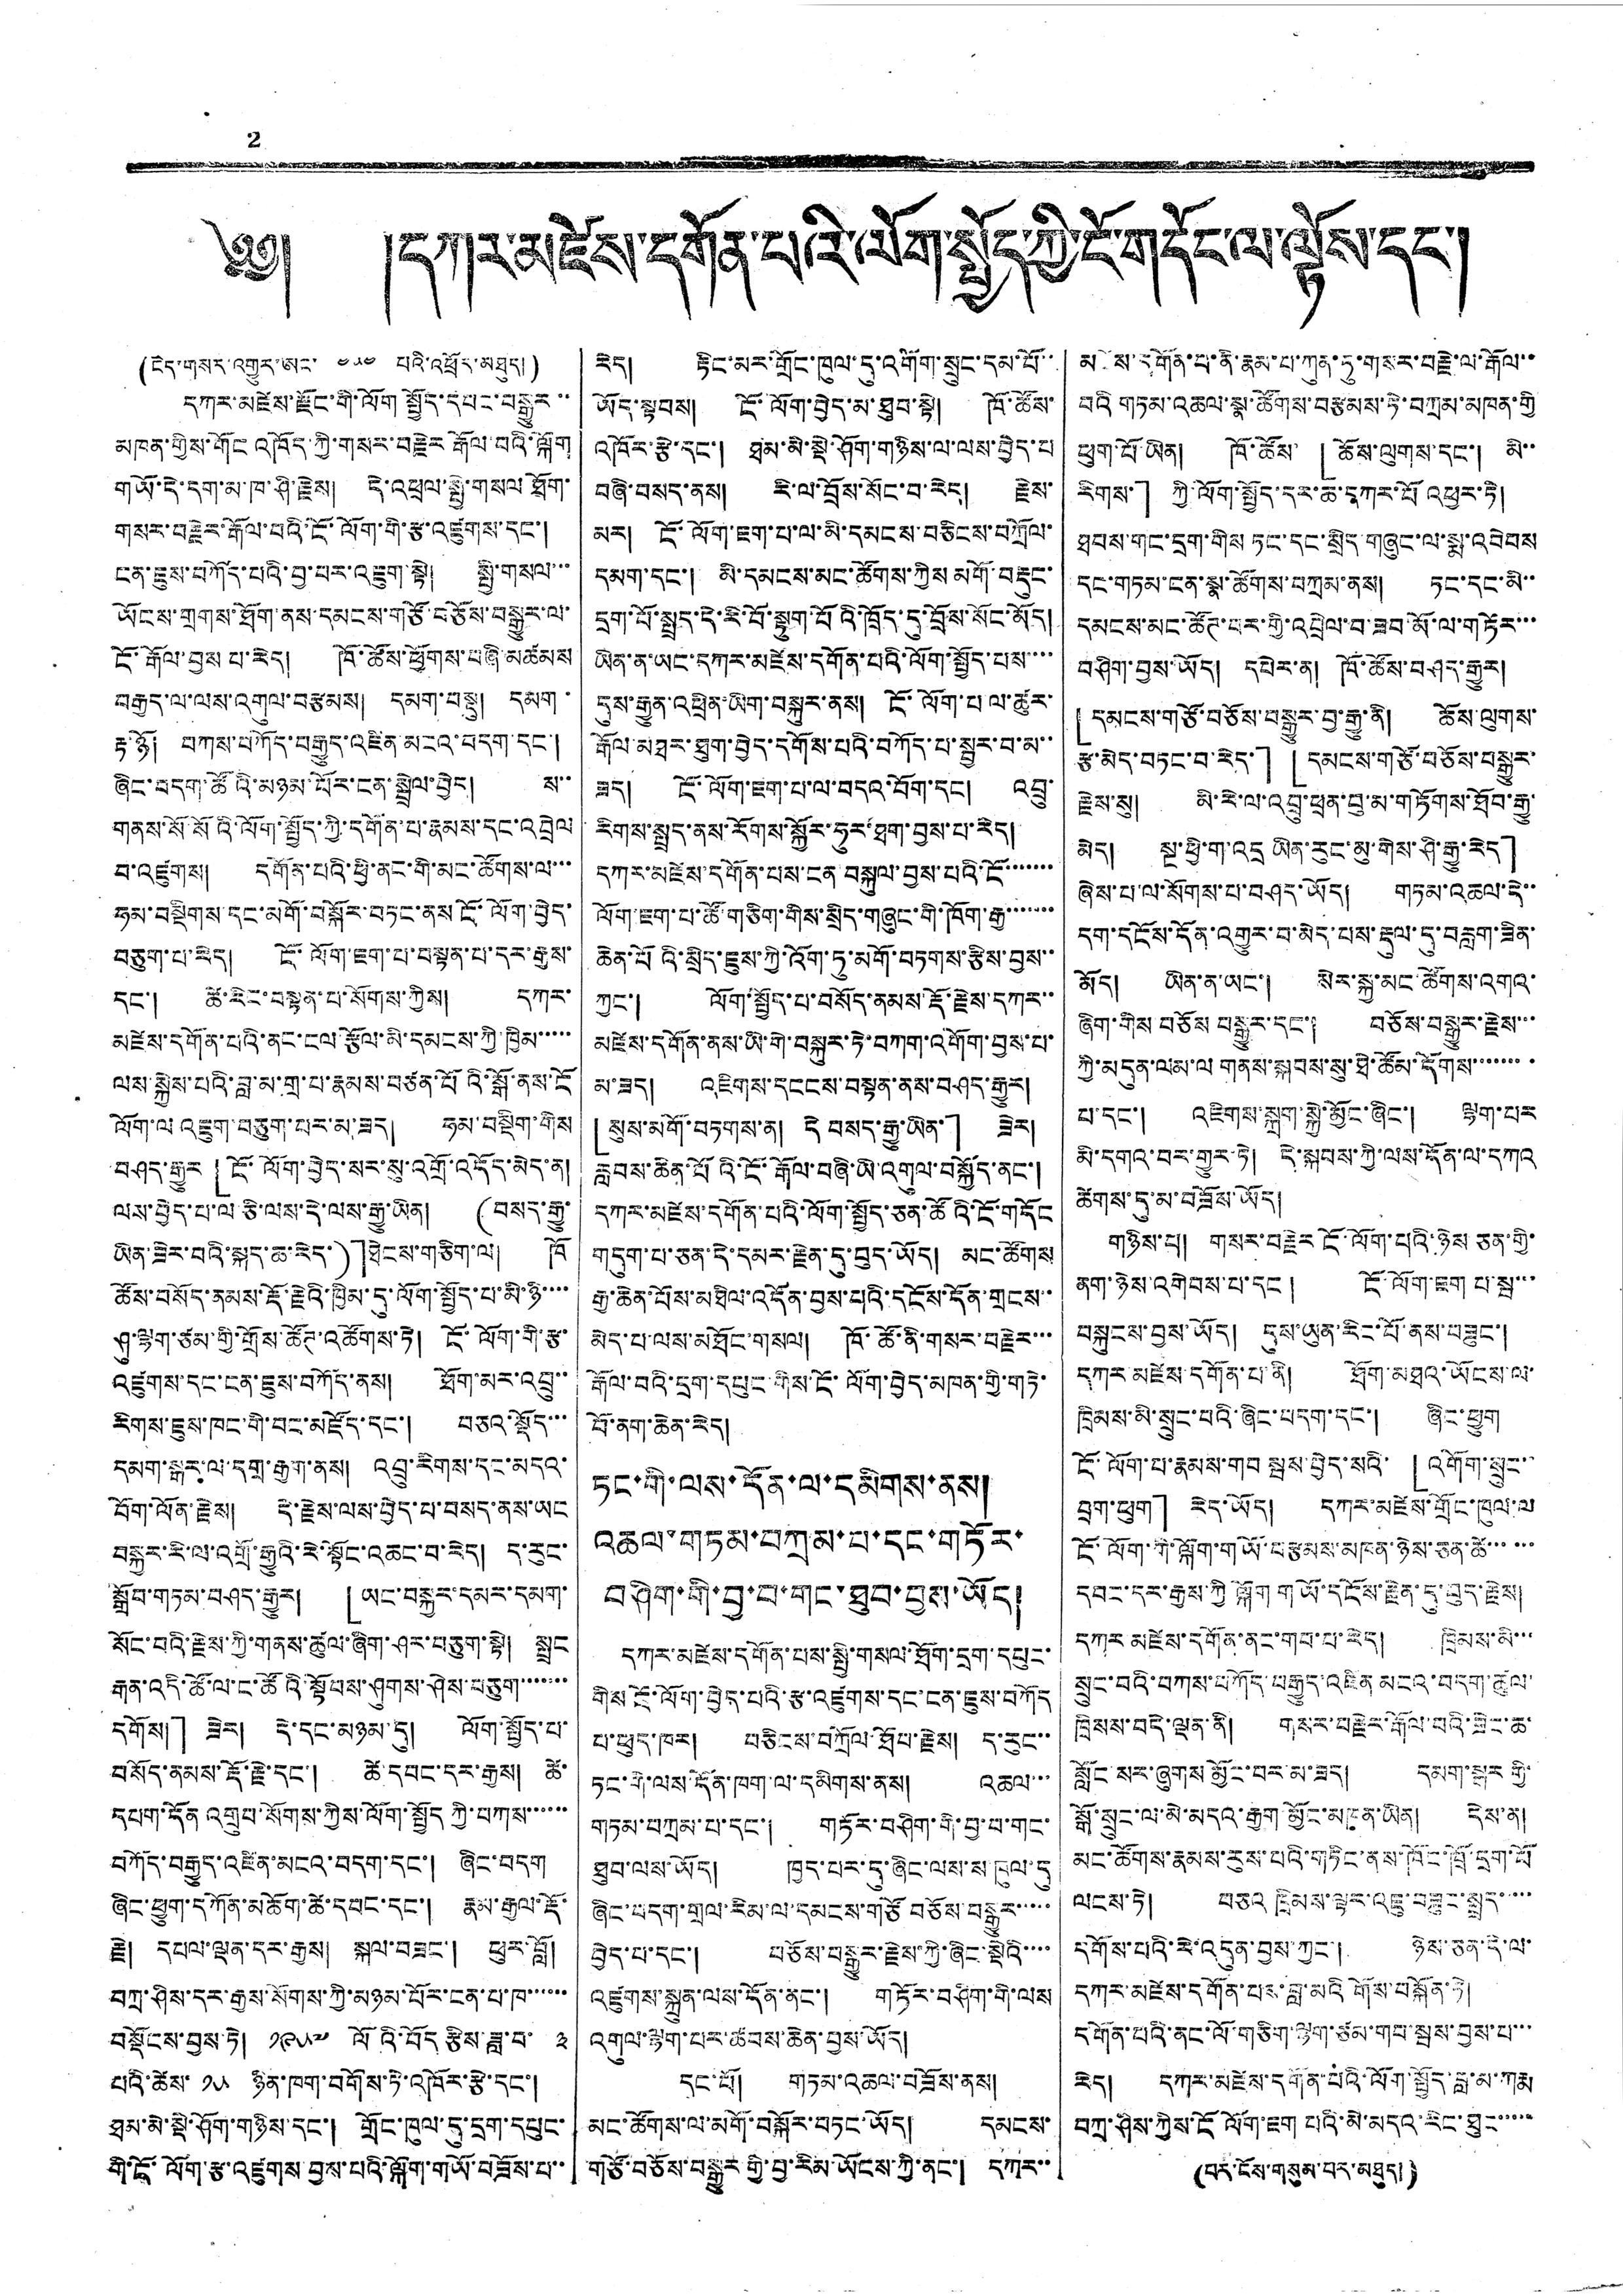2
༄༅། །དཀར་མཛེས་དགོན་པའི་ལོག་སྤྱོད་ཀྱི་ངོ་གདོང་ལ་ལྟོས་དང་།
(ངེད་གསར་འགྱུར་ཨང་ ༤༥༤ པའི་འཕྲོར་མཐུད།)
དཀར་མཛེས་རྫོང་གི་ལོག སྤྱོད་དབང་བསྒྱུར་་
མཁན་གྱིས་གོང འཁོད་ཀྱི་གསར་བརྗེར རྒོལ བའི་ལྐོག
གཡོ་དེ་དག་མ་ཁ་ཤི་རྗེས། དེ་འཕྲལ་སྤྱེ་གསལ ཐོག་
གསར་བརྗེར་རྒོལ་བའི་ངོ་ལོག་གི་རྩ་འཛུགས་དང་།
ངན་ཇུས་བཀོད་པའི་བྱ་པར་འཇུག་སྟེ། སྤྱི་གསལ་་་
ཡོངས་གྲགས་ཐོག་ནས་དམངས་གཙོ་བཅོས་བསྒྱུར་ལ་
ངོ་རྒོལ་བྱས པ་རེད། ཁོ་ཚོས་ཕྱོགས་བཞི་མཚམས
བརྒྱད་ལ་ལས་འགུལ་བརྩམས། དམག་བསྡུ། དམག་
རྟ་ཉོ། བཀས་བཀོད་བརྒྱུད་འཛིན་མངའ་བདག་དང་།
ཞིང་བདག་ཚོའི་མཉམ་པོར་ངན་སྦྲེལ་བྱེད། ས་་
གནས་སོ་སོའི་ལོག་སྤྱོད་ཀྱི་དགོན་པ་རྣམས་དང་འབྲེལ
བ་འཛུགས། དགོན་པའི་ཕྱི་ནང་གི་མང་ཚོགས་ལ་་་
ཧམ་བསྡིགས་དང་མགོ་བསྐོར་བཏང་ནས ངོ་ལོག་བྱེད་
བཅུག་པ་རེད། ངོ་ལོག་ཇག་པ་བསྟན་པ་དར་རྒྱས་
དང་། ཚེ་རིང་བསྟན་པ་སོགས་ཀྱིས། དཀར་
མཛེས་དགོན་པའི་ནང་ངལ་རྩོལ་མི་དམངས་ཀྱི་ཁྱིམ་་་་་
ལས་སྐྱེས་པའི་བླ་མ་གྲ་པ་རྣམས་བཙན་པོའི་སྒོ་ནས་ངོ
ལོག་ལ འཇུག་བཅུག་པར་མ་ཟད། ཧམ་བསྡིག་གིས
བཤད་རྒྱུར 「ངོ་ལོག་བྱེད་སར་སུ་འགྲོ་འདོད་མེད་ན།
ལས་བྱེད་པ་ལ་ཅི་ལས་དེ་ལས་རྒྱུ་ཡིན། (བསད་རྒྱུ་
ཡིན་ཟེར་བའི་སྐད་ཆ་རེད་)」ཐེངས་གཅིག་ལ། ཁོ
ཚོས་བསོད་ནམས་རྡོ་རྗེའི་ཁྱིམ་དུ་ལོག་སྤྱོད་པ་མི་ཉི་་་་
ཤུ་ལྷག་ཙམ་གྱི་གྲོས་ཚོཊ་འཚོགས་ཏེ། ངོ་ལོག་གི་རྩ་
འཛུགས་དང་ངན་ཇུས་བཀོད་ནས། ཐོག་མར་འབྲུ་་
རིགས་ཇུས་ཁང་གི་བང་མཛོད་དང་། བཅའ་སྡོད་་་
དམག་སྒར་ལ་དགྲ་རྒྱག་ནས། འབྲུ་རིགས་དང་མདའ་
བོག་ལོན་རྗེས། དེ་རྗེས་ལས་བྱེད་པ་བསད་ནས་ཡང
བསྐྱར་རི་ལ་འགྲོ་རྒྱུའི་རེ་སྟོང་འཆང་བ་རེད། ད་རུང་
སྒྲོབ་གཏམ་བཤད་རྒྱུར། 「ཡང་བསྐྱར་དམར་དམག་
སོང་བའི་རྗེས་ཀྱི་གནས་ཚུལ་ཞིག་ཤར་བཅུག་སྟེ། སྤྲང
རྒན་འདི་ཚོ་ལ་ང་ཚོའི་སྟོབས་ཤུགས་ཤེས་བཅུག་་་་་་་
དགོས།」 ཟེར། དེ་དང་མཉམ་དུ། ལོག་སྤྱོད་པ་
བསོད་ནམས་རྡོ་རྗེ་དང་། ཚེ་དབང་དར་རྒྱས། ཚེ་
དཔག་དོན འགྲུབ་སོགས་ཀྱིས་ལོག་སྤྱོད ཀྱི་བཀས་་་་་་
བཀོད་བརྒྱུད་འཛིན་མངའ་བདག་དང་། ཞིང་བདག
ཞིང་ཕྱུག་དཀོན་མཆོག་ཚེ་དབང་དང་། རྣམ་རྒྱལ་རྡོ་
རྗེ། དཔལ་ལྡན་དར་རྒྱས། སྐལ་བཟང་། ཕུར་བློ།
བཀྲ་ཤིས་དར་རྒྱས་སོགས་ཀྱི་མཉམ་པོར་ངན་པ་ཁ་་་་་་
བསྡོངས་བྱས་ཏེ། ༡༩༥༧ ལོའི་བོད རྩིས་ཟླ་བ་ ༣
པའི་ཚེས་ ༡༥ ཉིན་ཁག་བགོས་ཏེ་འཁོར་རྩེ་དང་།
ཐམ་མེ་སྡེ་ཤོག་གཉིས་དང་། གྲོང་ཁུལ་དུ་དྲག་དཔུང་
གི་ངོ་ལོག་རྩ་འཛུགས་བྱས་པའི་ལྐོག་གཡོ་བཟོས་པ་་
རེད། རྟིང་མར་གྲོང་ཁུལ་དུ་འགོག་སྲུང་དམ་པོ་་
ཡོད་སྟབས། ངོ་ལོག་བྱེད་མ་ཐུབ་སྟེ། ཁོ་ཚོས་
འཁོར་རྩེ་དང་། ཐམ་མེ་སྡེ་ཤོག་གཉིས་ལ་ལས་བྱེད་པ
བཞི་བསད་ནས། རི་ལ་བྲོས་སོང་བ་རེད། རྗེས་
མར། ངོ་ལོག་ཇག་པ་ལ་མི་དམངས་བཅིངས་བཀྲོལ་
དམག་དང་། མི་དམངས་མང་ཚོགས་ཀྱིས མགོ་བརྡུང་
དྲག་པོ་སྤྲད་དེ་རི་བོ་སྟུག་པོའི་ཁྲོད་དུ་བྲོས་སོང་མོད།
ཡིན་ན་ཡང་དཀར་མཛེས་དགོན་པའི་ལོག་སྤྱོད་པས་་་་
དུས་རྒྱུན་འཕྲིན་ཡིག་བསྐུར་ནས། ངོ་ལོག་པ ལ་ཚུར་
རྒོལ་མཐར་ཐུག་བྱེད་དགོས་པའི་བཀོད་པ་སྦྱར་བ་མ་་
ཟད། ངོ་ལོག་ཇག་པ་ལ་བདའ་བོག་དང། འབྲུ་
རིགས་སྤྲད་ནས་རོགས་སྐྱོར་ཧུར་ཐག་བྱས་པ་རེད།
དཀར་མཛེས་དགོན་པས་ངན བསྐུལ་བྱས་པའི་ངོ་་་་་་་
ལོག་ཇག་པ་ཚོ་གཅིག་གིས་སྲིད་གཞུང་གི་ཁོག་རྒྱ་་་་་་་
ཆེན་པོའི་སྲིད་ཇུས་ཀྱི་འོག་ཏུ་མགོ་བཏགས་རྩིས་བྱས་་
ཀྱང་། ལོག་སྤྱོད་པ་བསོད་ནམས་རྡོ་རྗེས་དཀར་་
མཛེས་དགོན་ནས་ཡི་གེ་བསྐུར་ཏེ་བཀག་འགོག་བྱས་པ་
མ་ཟད། འཇིགས་དངངས་བསྟན་ནས་བཤད་རྒྱུར།
「སུས་མགོ་བཏགས་ན། དེ བསད་རྒྱུ་ཡིན་」 ཟེར།
རླབས་ཆེན་པོའི་ངོ་རྒོལ་བཞི་ཡི་འགུལ་བསྐྱོད་ནང་།
དཀར་མཛེས་དགོན་པའི་ལོག་སྤྱོད་ཅན་ཚོའི་ངོ་གདོང
གདུག་པ་ཅན་དེ་དམར་རྗེན་དུ་བུད་ཡོད། མང་ཚོགས
རྒྱ་ཆེན་པོས་མཐིལ་འདོན་བྱས་པའི་དངོས་དོན་གྲངས་་
མེད་པ་ལས་མཐོང་གསལ། ཁོ་ཚོ་ནི་གསར་བརྗེར་་་
རྒོལ་བའི་དྲག་དཔུང་གིས་ངོ་ལོག་བྱེད་མཁན་གྱི་གཏེ་
བོ་ནག་ཆེན་རེད།
ཏང་གི་ལས་དོན་ལ་དམིགས་ནས།
འཆལ་གཏམ་བཀྲམ་པ་དང་གཏོར་
བཤིག་གི་བྱ་བ་གང་ཐུབ་བྱས་ཡོད།
དཀར་མཛེས་དགོན་པས་སྤྱི་གསལ་ཐོག་དྲག་དཔུང་
གིས ངོ་ལོག་བྱེད་པའི་རྩ་འཛུགས་དང་ངན་ཇུས་བཀོད
པ་ཕུད་ཁར། བཅིངས་བཀྲོལ་ཐོབ་རྗེས། ད་རུང་་
ཏང་གི་ལས་དོན་ཁག་ལ་དམིགས་ནས། འཆལ་་་
གཏམ་བཀྲམ་པ་དང་། གཏོར་བཤིག་གི་བྱ་བ་གང་
ཐུབ་ལས་ཡོད། ཁྱད་པར་དུ་ཞིང་ལས་ས་ཁུལ་དུ
ཞིང་བདག་གྲལ་རིམ་ལ་དམངས་གཙོ བཅོས་བསྒྱུར་་་་་
བྱེད་པ་དང་། བཅོས་བསྒྱུར་རྗེས་ཀྱི་ཞིང་སྡེའི་་་་
འཛུགས་སྐྲུན་ལས་དོན་ནང་། གཏོར་བཤིག་གི་ལས
འགུལ་ལྷག་པར་ཚབས་ཆེན་བྱས་ཡོད།
དང་པོ། གཏམ་འཆལ་བཟོས་ནས།
མང་ཚོགས་ལ་མགོ་བསྐོར་བཏང་ཡོད། དམངས་
གཙོ་བཅོས་བསྒྱུར་གྱི་བྱ་རིམ་ཡོངས་ཀྱི་ནང་། དཀར་་
མཛེས་དགོན་པ་ནི་རྣམ་པ་ཀུན་ཏུ་གསར་བརྗེ་ལ་རྒོལ་་
བའི གཏམ་འཆལ་སྣ་ཚོགས་བརྩམས་ཏེ་བཀྲམ་མཁན་གྱི
ཕུག་པོ་ཡིན། ཁོ་ཚོས་ 「ཆོས་ལུགས་དང་། མི་་
རིགས་」 ཀྱི་ལོག་སྦྱོད་དར་ཆ་དཀར་པོ འཕྱར་ཏི།
ཐབས་གང་དྲག་གིས ཏང་དང་སྲིད་གཞུང་ལ་སྨ་འབེབས
དང་གཏམ་ངན་སྣ་ཚོགས་བཀྲམ་ནས། ཏང་དང་མི་་
དམངས་མང་ཚོཊ་པར་གྱི་འབྲེལ་བ་ཟབ་མོ་ལ་གཏོར་་་
བཤིག་བྱས་ཡོད། དཔེར་ན། ཁོ་ཚོས་བཤད་རྒྱུར།
「 དམངས་གཙོ་བཅོས་བསྒྱུར་བྱ་རྒྱུ་ནི། ཆོས་ལུགས་
རྩ་མེད་བཏང་བ་རེད་」「དམངས་གཙོ་བཅོས་བསྒྱུར་
རྗེས་སུ། མི་རེ་ལ་འབྲུ་ཕྲན་བུ་མ་གཏོགས་ཐོབ་རྒྱུ་
མེད། སྔ་ཕྱི་ག་འདྲ ཡིན་རུང་མུ་གེས་ཤི་རྒྱུ་རེད」
ཞེས་པ་ལ་སོགས་པ་བཤད་ཡོད། གཏམ་འཆལ་དེ་་
དག་དངོས་དོན་འགྱུར་བ་མེད་པས་རྡུལ་དུ་བརླག་ཟིན་
མོད། ཡིན་ན་ཡང་། སེར་སྐྱ་མང་ཚོགས་འགའ་
ཞིག་གིས བཅོས བསྒྱུར་དང་། བཅོས་བསྒྱུར་རྗེས་་་
ཀྱི་མདུན་ལམ་ལ གནས་སྐབས་སུ་ཐེ་ཚོམ་དོགས་་་་་་་་
པ་དང་། འཇིགས་སྐྲག་སྐྱེ་མྱོང་ཞིང་། ལྷག་པར
མི་དགའ་བར་གྱུར་ཏེ། དེ་སྐབས་ཀྱི་ལས་དོན་ལ་དཀའ
ཚེགས་དུ་མ་བཟོས་ཡོད།
གཉིས་པ། གསར་བརྗེར ངོ་ལོག་པའི་ཉེས ཅན་གྱི་
ནག་ཉེས་འགེབས་པ་དང ། ངོ་ལོག་ཇག པ་སྦ་་་
བསྐུངས་བྱས་ཡོད། དུས་ཡུན་རིང་པོ་ནས་བཟུང་།
དཀར་མཛེས་དགོན་པ་ནི། ཐོག་མཐའ་ཡོངས་ལ་
ཁྲིམས་མི་སྲུང་བའི་ཞིང་བདག་དང་། ཞིང་ཕྱུག
ངོ་ལོག་པ་རྣམས་གབ སྦས་བྱེད་སའི་ 「འགོག་སྲུང་་
བྲག་ཕུག」 རེད་ཡོད། དཀར་མཛེས་གྲོང་ཁུལ་ལ
ངོ་ལོག་གི་སྐོག་གཡོ་བརྩམས་མཁན་ཉེས་ཅན་ཚེ་་་་་་
དབང་དར་རྒྱས་ཀྱི ལྐོག གཡོ་དངོས་རྗེན་དུ་བུད་རྗེས།
དཀར་མཛེས་དགོན་ནང་གབ་པ་རེད། ཁྲིམས་མི་་་
སྲུང་བའི་བཀས་བཀོད་བརྒྱུད་འཛིན མངའ་བདག་ཚུལ་
ཁྲིསས་བདེ་ལྡན་ནི། གསར་བརྗེར་རྒོལ་བའི་ཟེང་ཆ་
སློང་སར་ཞུགས མྱོང་བར་མ་ཟད། དམག་སྒར གྱི་
སྒོ་སྲུང་ལ་མེ་མདའ་རྒྱག་མྱོང་མཁན་ཡིན། དེས་ན།
མང་ཚོགས་རྣམས་རུས་པའི་གཏིང་ནས་ཁོང་ཁྲོ་དྲག་པོ
ལངས་ཏེ། བཅའ ཁྲིམས་ལྟར་འཇུ་བཟུང་སྤྲད་་་་་
དགོས་པའི་རེ་འདུན་བྱས་ཀྱང་། ཉེས་ཅན་དེ་ལ་
དཀར་མཛེས་དགོན་པས་བླ་མའི གོས་བསྐོན་ཏེ།
དགོན་པའི་ནང་ལོ་གཅིག་ལྷག་ཙམ་གབ་སྦས་བྱས་པ་་་
རེད། དཀར་མཛེས་དགོན་པའི་ལོག་སྤྱོད་བླ་མ་ཀརྨ
བཀྲ་ཤིས་ཀྱིས་ངོ ལོག་ཇག པའི་མེ་མདའ་རིང་ཐུང་་་་་
(པར་ངོས་གསུམ་པར་མཐུད།)
